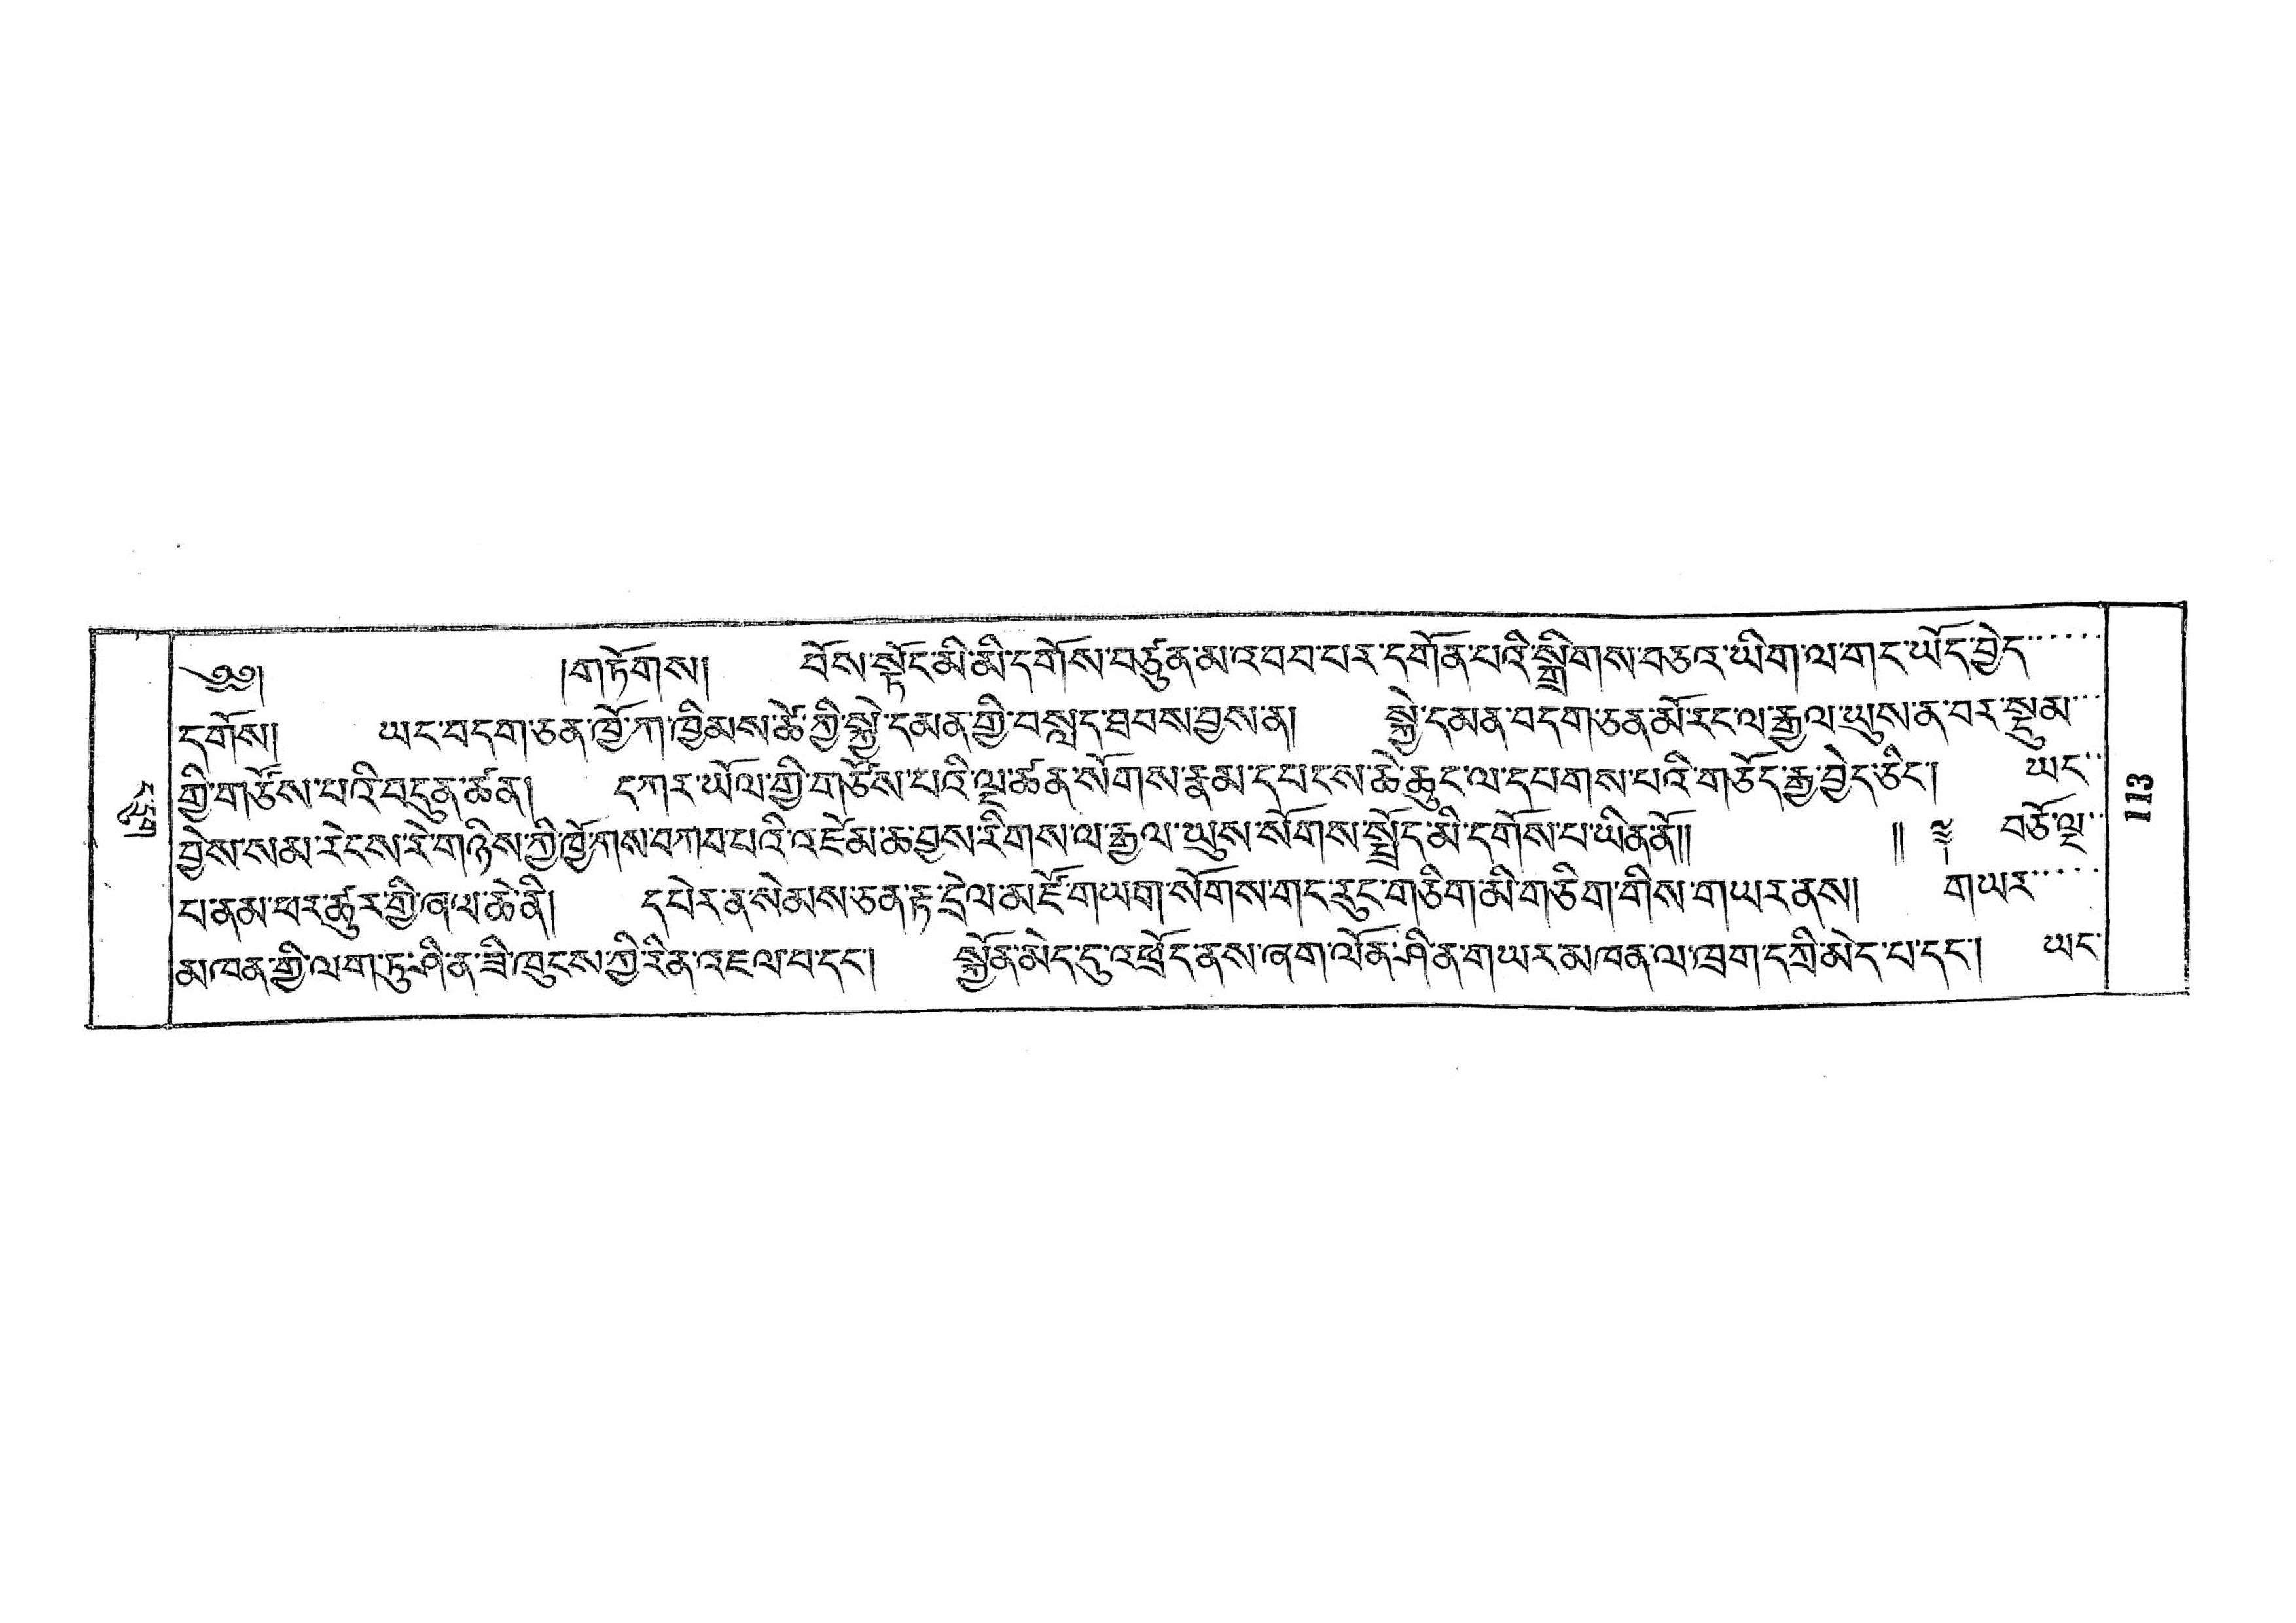ང་དྲུག་
༄༅།  །གཏོགས། བོས་སྟོང་མི་མི་དགོས་བཙུན་མ་འབབ་པར་དགོན་པའི་སྒྲིགས་བཅའ་ཡིག་ལ་གང་ཡོད་བྱེད་་་་་་
དགོས། ཡང་བདག་ཅན་ཁྱོ་ཁྱིམས་ཚེ་ཀྱི་སྐྱེ་དམན་གྱི་བསླད་ཐབས་བྱས་ན། སྐྱེ་དམན་བདག་ཅན་མོ་རང་རྒྱལ་ཡུས་ན་བར་སྡུམ་་་
གྱི་གཙོས་པའི་བདུན་ཚན། དཀར་ཡོལ་གྱི་གཙོས་པའི་ལྔ་ཚན་སོགས་རྣམ་དཔངས་ཆེ་ཆུང་ལ་དཔགས་པའི་གཅོད་རྒྱ་བྱེད་ཅིང་། ཡང་་
བྱེས་སམ་རེངས་རེ་གཉིས་ཀྱི་ཁྱོ་གས་བཀབ་པའི་འཛེམ་ཆ་བྱས་རིགས་ལ་རྒྱལ་ཡུས་སོགས་སྤྲོད་མི་དགོས་པ་ཡིན་ནོ།།  །། ༈ བཅོ་ལྔ་་
པ་ནམ་ཕར་ཚུར་གྱི་ཞལ་ཆེ་ནི། དཔེར་ན་སེམས་ཅན་རྟ་དྲེལ་མཛོ་གཡག་སོགས་གང་རུང་གཅིག་མི་གཅིག་གིས་གཡར་ནས། གཡར་་་་་
མཁན་གྱི་ལག་ཏུ་ཤི་ན་ཟི་ཁུངས་ཀྱི་རིན་འཇལ་བ་དང་། སྐྱོན་མེད་དུ་འཕྲོད་ནས་ཞག་ལོན་ཤིན་གཡར་མཁན་ལ་ཁྲག་དཀྲི་མེད་པ་དང་། ཡང་
